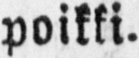poikki.
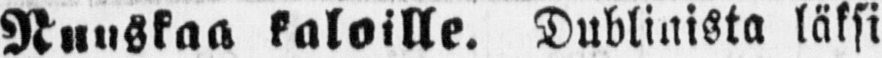Nuuskaa kaloille. Dublinista läksi
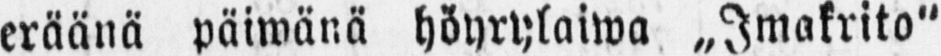eräänä päiwänä höyrylaiwa „Imakrito"
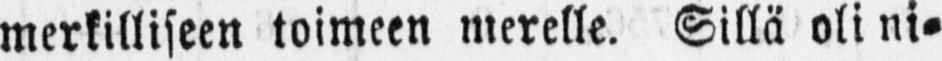merkilliseen toimeen merelle. Sillä oli ni-
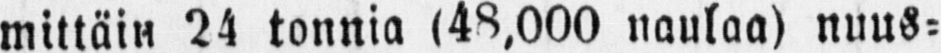mittäin 24 tonnia (48,000 naulaa) nuus-
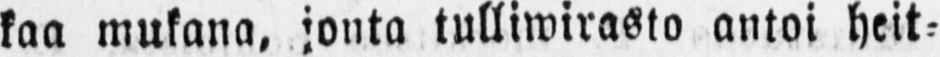kaa mukana, jonta tulliwirasto antoi heit-
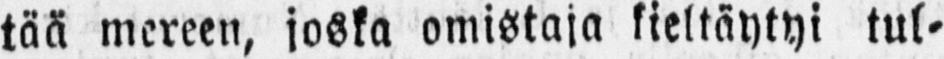tää mereen, joska omistaja kieltäytyi tul-
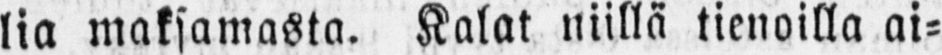lia maksamasta. Kalat niillä tienoilla ai-
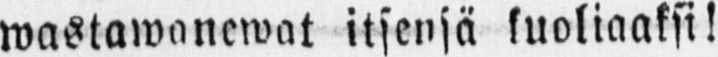wastawanewat itsensä kuoliaaksi!
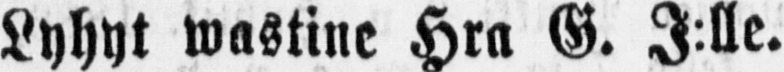Lyhyt wastine Hra G. J:lle.
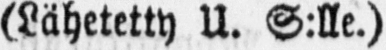(Lähetetty U. S:lle.)
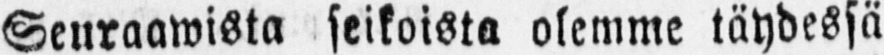Seuraawista seikoista olemme täydessä
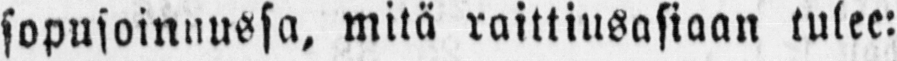sopusoinnussa, mitä raittiusasiaan tulee:
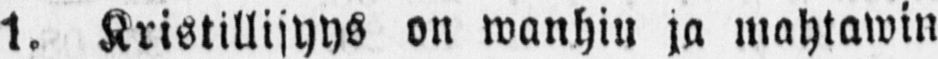1. Kristillisyys on wanhin ja mahtawin
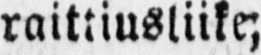raittiusliike;
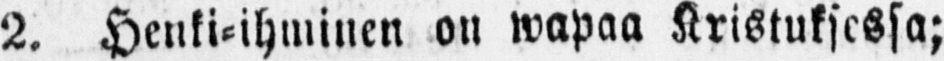2. Henki-ihminen on wapaa Kristuksessa;
